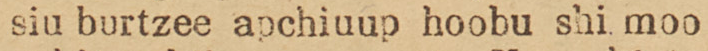siu burtzee apchiuup hoobu shi moo
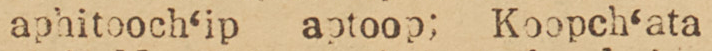aphitooch'ip aptoop; Koopch'ata
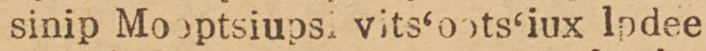sinip Mooptsiupsi vits'oots'iux lpdee
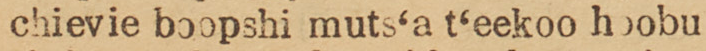chievie boopshi muts'a t'eekoo hoobu
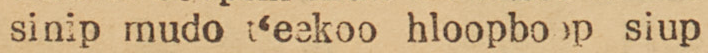sinip mudo t'eekoo hloopboop siup
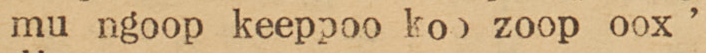mu ngoop keeppoo koo zoop oox'
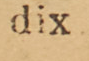dix.
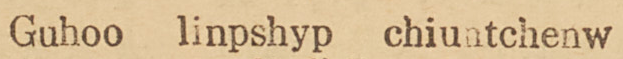Guhoo linpshyp chiuutchenw
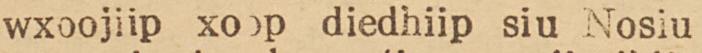wxoojiip xop diedhiip diu Nosiu
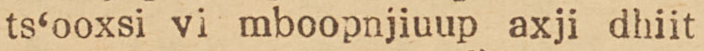ts'ooxsi vi mboopnjiuup axji dhiit
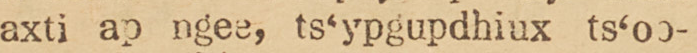axti ap ngee, ts'ypgupdhiux ts'oo-
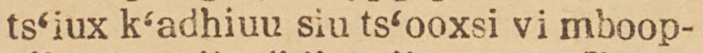ts'iux k'adhiuu siu ts'ooxsi vi mboop-
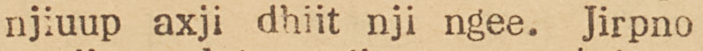njiuup axji dhiit nji ngee. Jirpno
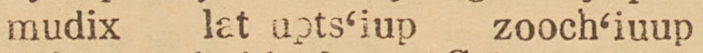mudix lat upts'iup zooch'iuup
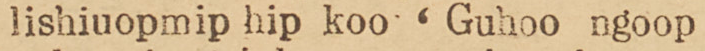lishiuopmip hip koo ' Guhoo ngoop
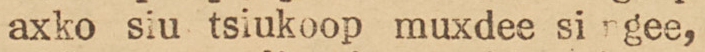axko siu tsiukoop muxdee si ngee,
